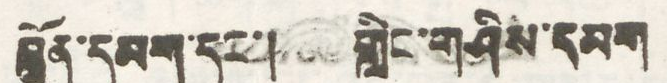བློན་དམག་དང་། གླིང་གཤིས་དམག
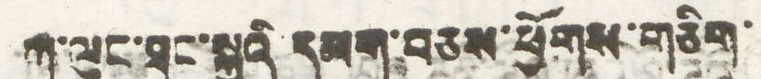ཀུ་ལུང་ཐང་སྐྱའི་དམག་བཅས་ཕྱོགས་གཅིག་
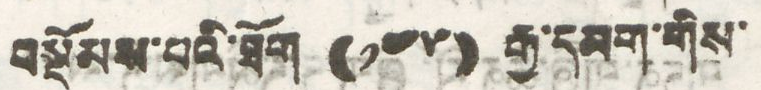བསྡོམས་པའི་ཐོག ((༡༤༥)) རྒྱ་དམག་གིས་
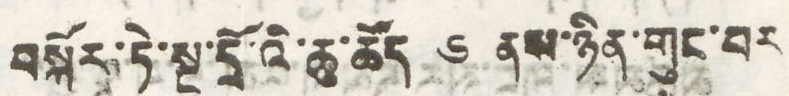བསྐོར་ཏེ་སྔ་དྲོ་འི་ཆུ་ཚོད ༦ ནས་ཉིན་གུང་བར
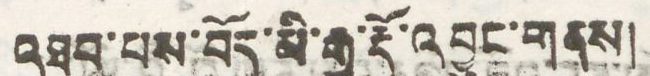འཐབ་པས་བོད་མི་རྒྱ་རྡོ་འབྱུང་གནས།
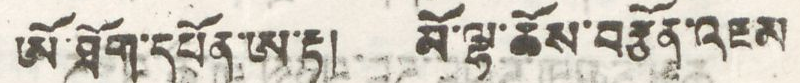ཨོ་ཐོག་དཔོན་ཨ་རྟ། མོ་ལྷ་ཆོས་བརྩོན་འཇམ
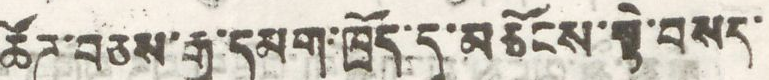ཚོཌ་བཅས་རྒྱ་དམག་ཁྲོད་དུ་མཆོངས་སྟེ་བསད་
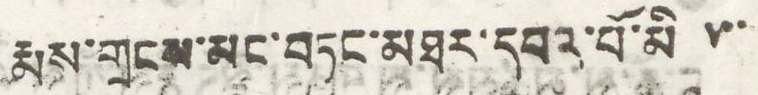རྨས་གྲངས་མང་བཏང་མཐར་དབའ་པོ་མི ༥་
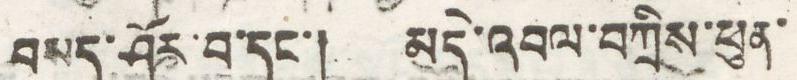བསད་ཤོར་བ་དང་། མདེ་འབལ་བཀྲིས་ཕུན་
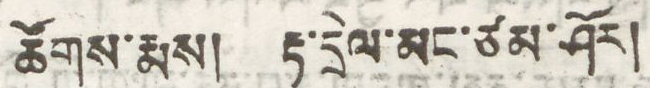ཚོགས་རྨས། རྟ་དྲེལ་མང་ཙམ་ཤོར།
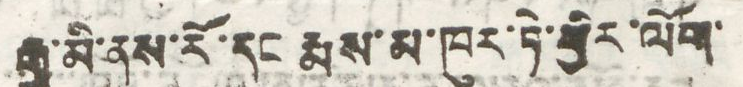རྒྱ་མི་ནས་རོ་དང་རྨས་མ་ཁུར་ཏེ་ཕྱིར་ལོག་
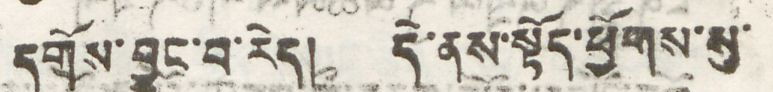དགོས་བྱུང་བ་རེད། དེ་ནས་སྟོད་ཕྱོགས་སུ་
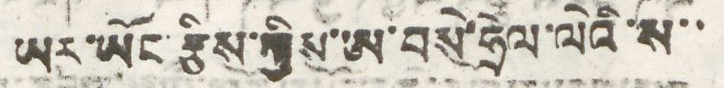ཡར་ཡོང་རྩིས་ཀྱིས་ཨ་བསེ་ཧྲེལ་ལེའི་ས་་
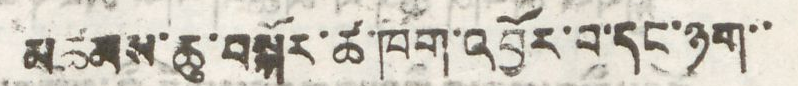མཚམས་ཆུ་བསྐོར་ཚ་ཁག་འབྱོར་བ་དང་ཉག་་
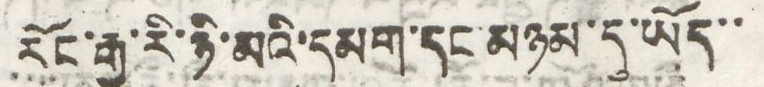རོང་རྒྱ་རི་ཉི་མའི་དམག་དང་མཉག་དུ་ཡོད་་
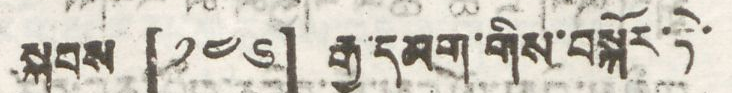སྐབས་ [༡༤༦] རྒྱ་དམག་གིས་བསྐོར་ཏེ་
